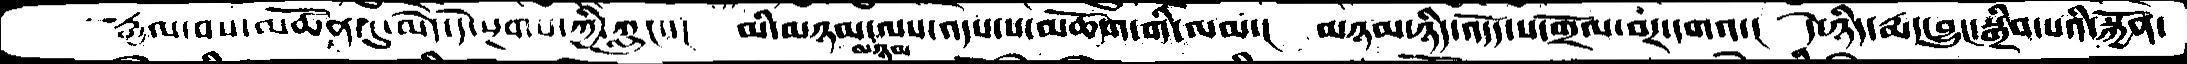རྒྱལ་བས་མཚོན་དུ་མེད་དེ་སྔགས་ཀྱི་ཀླུང་་།  མི་མཉམ་མཉམ་ལས་འདས་པ་མཆོག་གི་ལམ་།  མཉམ་ཉིད་འདོད་པ་གྲོལ་བར་དགའ་།  དེ་ཉིད་རྨད་བྱུང་སྒྲིབ་པའི་སྐྱོན་
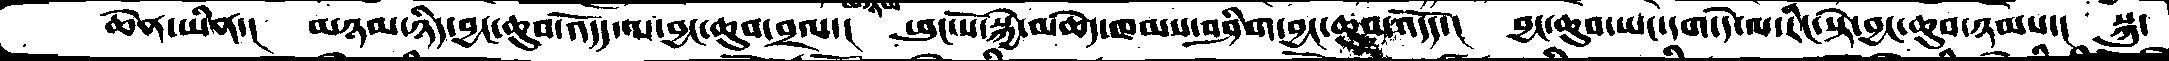ཆེན་ཡིན་།  མཉམ་ཉིད་བྱང་ཆུབ་འདོད་ལ་བྱང་ཆུབ་བྲལ་།  ཕུང་པོ་སྐྱེ་མཆེད་ཁམས་བཤིག་བྱང་ཆུབ་འདོད་།  བྱང་ཆུབ་ཡང་དག་དེ་ལ་རིང་སྟེ་བྱང་ཆུབ་ཉམས་།  སྐུ་
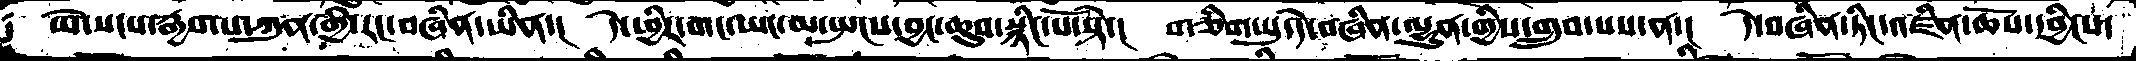ཡེ་སངས་རྒྱས་པ་ཀུན་གྱི་རང་བཞིན་ཡིན་།  དེ་ཕྱིར་གང་ཡང་མ་སྤངས་བྱང་ཆུབ་སྙིང་པོ་སྟེ་།  གཅིག་པུ་དེ་བཞིན་ལྷུན་གྱིས་གྲུབ་པས་ན་།  དེ་བཞིན་ཏིང་འཛིན་ཆོས་དབྱིངས་
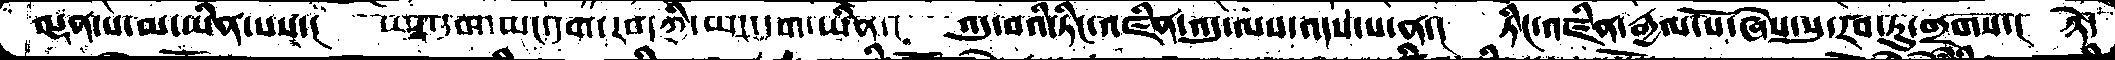ལྡན་པ་མ་ཡིན་པས་།  ཡང་དག་ཡང་དག་རབ་ཀྱི་ཡང་དག་ཡིན་།  འདུ་བའི་ཏིང་འཛིན་འདུ་ལས་འདས་པ་ན་།  ཏིང་འཛིན་རྒྱལ་པོ་ཞེས་སུ་རབ་ཏུ་གྲགས་།  ཉེ་
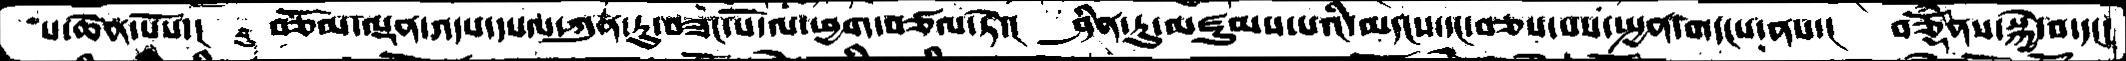པ་ཆེན་པོས་།  བཅོམ་ལྡན་འདས་དཔལ་ཀུན་ཏུ་བཟང་པོ་ལ་ཕྱག་བཙལ་ཏེ་།  ཤིན་ཏུ་མཛུམས་པའི་མདངས་དང་བཅས་པས་སྤྱན་གདངས་ནས་།  བཅྟོཾནས་སྐྱེ་བ་དང་
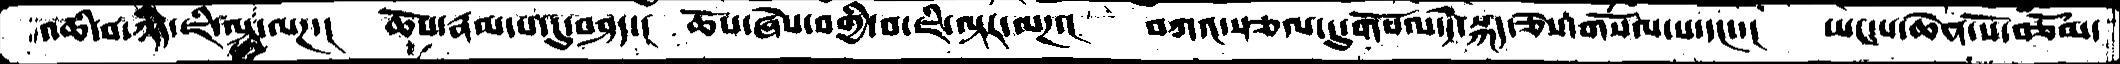འཆི་བ་ཉིད་ཇི་ལྟ་ལཌ་།  ཆོས་རྣམ་པ་དུ་བཤད་།  ཆོས་ཞེས་བགྱི་བ་ཇི་ལྟར་ལཌ་།  བཀའ་སྩལ་དུ་གསོལ་དེ་སྐད་ཅེས་གསོལ་པ་དང་་།  ཡང་པ་ཆེན་པོ་བཅོམ་
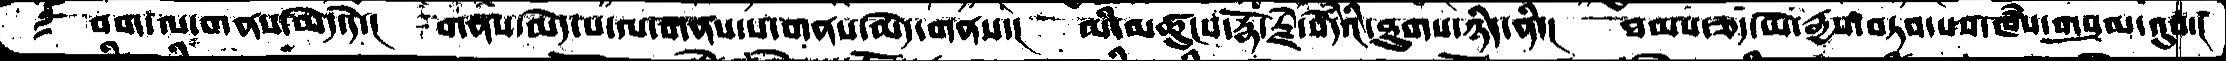བག་ལ་གནས་མེད་དེ་།  གནས་མེད་པ་ལ་གནས་པ་གནས་མེད་གནས་།  མི་མཚུངས་རྡོ་རྗེ་སེདཾའི་ཐུགས་ཉིད་ནི་།  ཐམས་ཅད་ཡེ་རྒྱས་བཏབ་པས་ཁཾས་གསུམ་འུབ་།
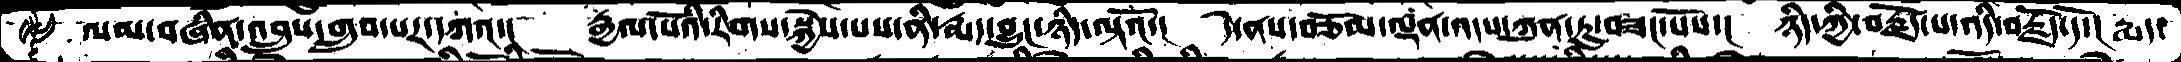ལམ་བཞིན་འབྲུས་གྲུབ་པར་དཀའ་།  རྒྱལ་པོའི་རིགས་སྐྱེས་པས་ནི་རྨད་བྱུང་ཉིད་ལྟའོ་།  དེ་ནས་བཅོམ་ལྡན་འདས་ཀུན་ཏུ་བཟང་པོས་།  ཉིད་ཀྱི་བརྗོད་པ་འདི་བརྗོད་དོ་།  རྨད་
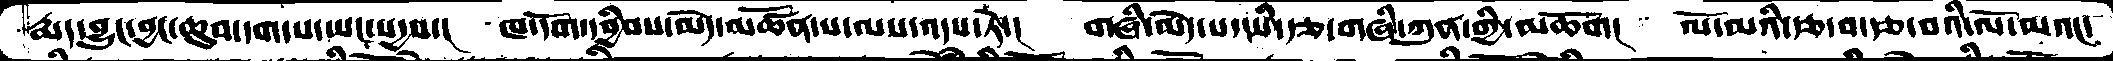རྨད་བྱུང་བྱང་ཆུབ་དག་པ་ཡང་སདྱས་།  ཁ་དོག་དབྱིབས་མེད་མཚོན་པ་ལས་འདས་ཏེ་།  གཞི་མེད་པ་ཡི་རྩ་གཞི་ཀུན་གྱི་མཆོག།  ལོ་མའི་རྩ་བ་རྩ་བའི་ལོ་མའང་
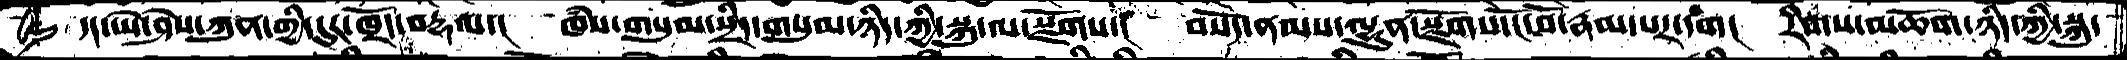དང་ཡེ་ཤེས་ཀུན་གྱི་དུར་ཁྲོད་བརྡལ་།  ཁཾས་གསུམ་སྲིད་གསུམ་ཉིད་ཀྱི་སྐུ་ལ་སྫོགས་།  བསོད་ནམས་ལྷུན་སྫོགས་ངོ་བོ་རྣམ་པར་དག།  རིགས་མཆོག་ཉིད་ཀྱི་སྐུ་
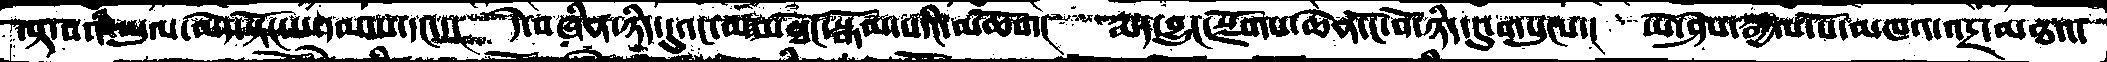ལྟ་བའི་ཡུལ་མེད་སྟོང་པ་དམ་པདང་་།  དེ་བཞིན་ཉིད་དུའང་མ་མཐོང་སྒོམ་པའི་མཆོག།  རྨད་བྱུང་སྫོགས་ཆེན་ངོ་བོ་ཉིད་དུ་གསུངས་།  ཡེ་ཤེས་རྒྱལ་པོ་མཁའ་འདྲ་མཐའ་
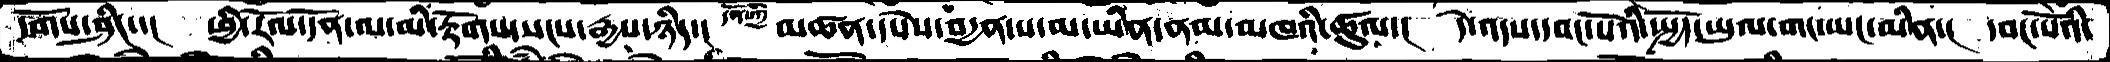དགོས་ཤིང་་།  ཕྱི་རོལ་དོན་ལ་མི་རྟོགས་སངས་རྒྱས་ཉིད་།  མཚན་དཔེས་བདྱན་པ་མ་ཡིན་ནམ་མཁའི་ཚུལ་།  དེ་འདས་དབང་པོའི་སྤྱོད་ཡུལ་གང་ཡང་མིན་།  དབང་པོའི་
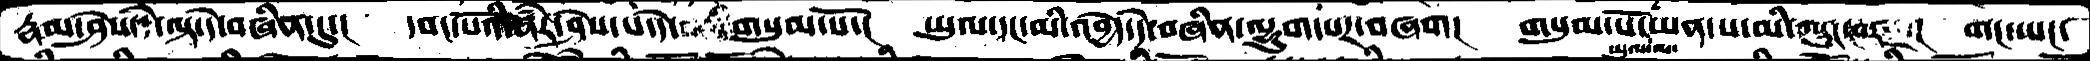རྣམ་ཤེས་དེ་ལྟ་དེ་བཞིན་དུ་།  དབང་པོའི་རྣཾར་ཤེས་པ་དེ་གསུམ་པོ་།  ཡུལ་དང་མི་འབྱེད་དེ་བཞིན་ལྷུག་པར་བཞག།  གསུམ་པོ་ཡུལ་ལ་ཡན་པ་མི་བསྲུང་བར་།  གང་ཡང་
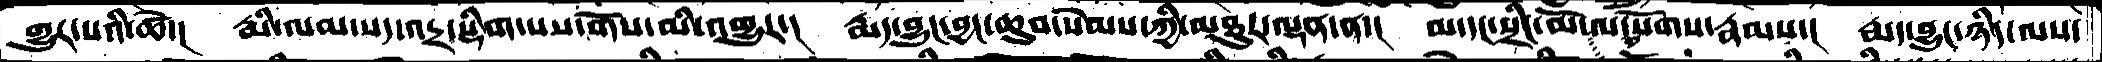གྱུར་པའི་ཚེ་།  རྨི་ལམ་སད་འདྲ་སྡིག་པས་གོས་མི་འགྱུར་།  རྨད་བྱུང་བྱང་ཆུབ་སེམས་ཀྱི་མཐུར་ལྡན་ན་།  མ་དང་སྲིང་མོ་ལ་སོགས་རྣམས་།  རྨད་བྱུང་ཉིད་ལས་
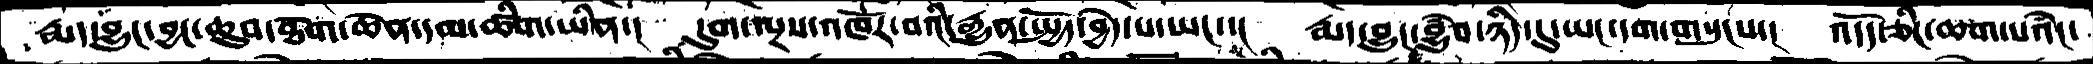རྨད་བྱུང་བྱང་ཆུབ་ཐེག་ཆེན་དམ་ཚིག་ཡིན་། དུག་ལྔས་འཁོར་བའི་རྒྱུན་སྤྱོད་བྱེད་པ་ཡང་་། རྨད་བྱུང་བྱུཾབ་ཉིད་དུ་ཡང་དག་གསུངས་། འདོད་ཅིང་ཆག་པའཾང་
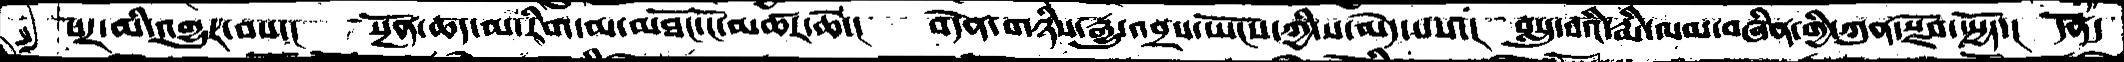པར་མི་འགྱུར་བས་།  སྔོན་ཚད་མ་རིག་མ་མཐོང་ངོ་མཚར་ཆེ་།  བདེན་གཉིས་རྒྱུ་འབྲས་ཡོངས་ཀྱི་ས་མེད་པས་།  བསླུ་བའི་རྨི་ལམ་བཞིན་གྱི་ཀུན་སྫོབ་སྤྱོད་།  དོན་
